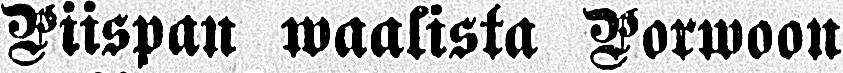Piispan waalista Porwoon
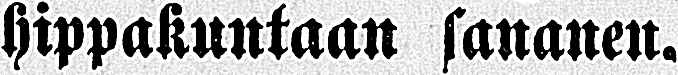hippakuntaan sananen.
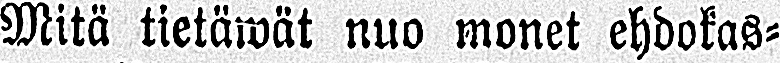Mitä tietäwät nuo monet ehdokas-
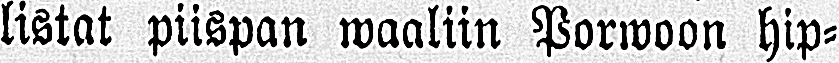listat piispan waaliin Porwoon hip-
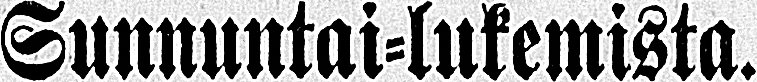Sunnuntai-lukemista.
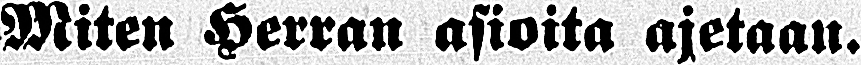Miten Herran asioita ajetaan.
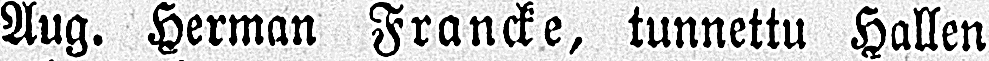Aug. Herman Francke, tunnettu Hallen
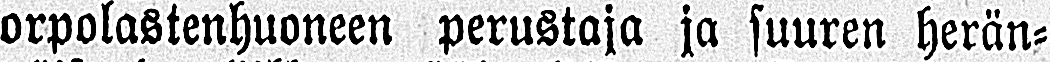orpolastenhuoneen perustaja ja suuren herän-
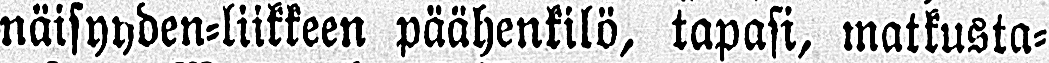näisyyden-liikkeen päähenkilö, tapasi, matkusta-
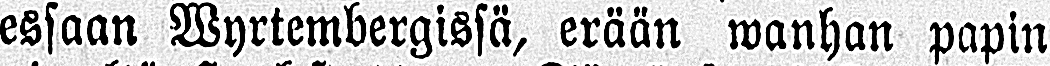essaan Wyrtembergissä, erään wanhan papin
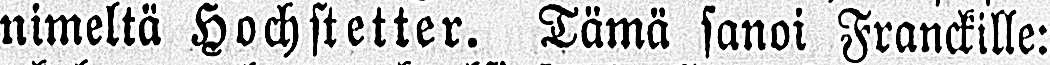nimeltä Hochstetter. Tämä sanoi Franckille:
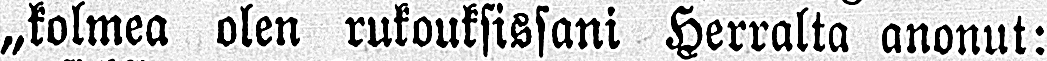„kolmea olen rukouksissani Herralta anonut:
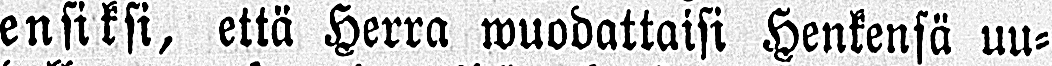ensiksi, että Herra wuodattaisi Henkensä uu-
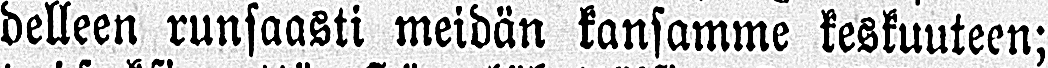delleen runsaasti meidän kansamme keskuuteen;
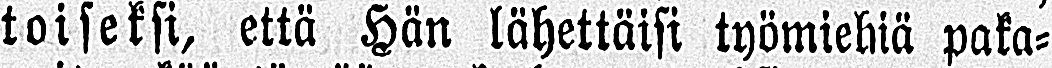toiseksi, että Hän lähettäisi työmiehiä paka-
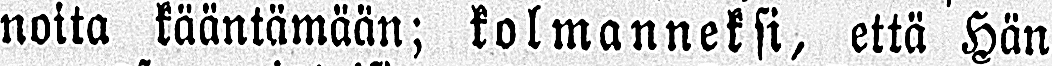noita kääntämään; kolmanneksi, että Hän
